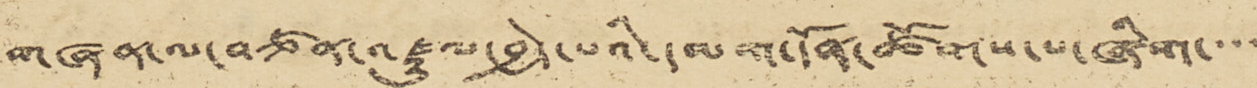གཞན་ལ་བཙན་འཛུལ་བྱེད་པའི་དམག་དོན་ཚོགས་པ་ཞིག་་་་
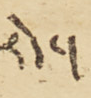རེད་།
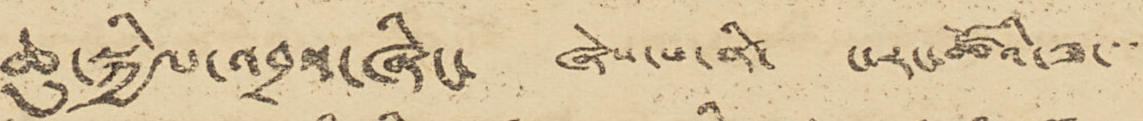ཆུ་སྐྱིལ་འབྲས་ཞིང་ ཞེས་པ་ནི་ ང་རང་ཚོའི་ཟ་་་་
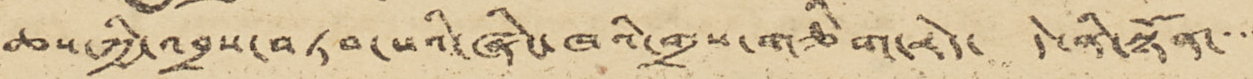ཆས་ཀྱི་འབྲས་བཏབ་པའི་ཞིང་ཁའི་གྲས་གཅིག་རེད་ དེ་ནི་སྟོན་་་་
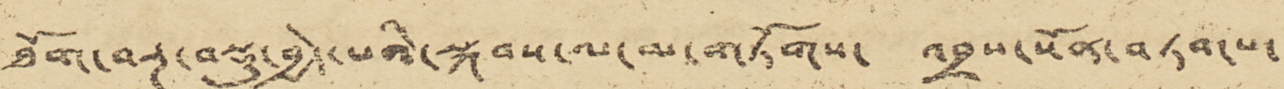ཐོག་བརྔ་བསྡུ་བྱེད་པའི་སྐབས་ལ་མ་གཏོགས་ འབྲས་སོན་བཏབ་པ་
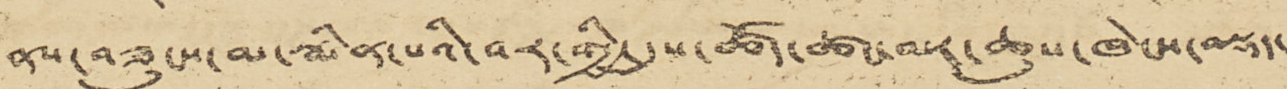ནས་བཟུངས་མ་སྨིན་པའི་བར་གྱི་དུས་ཚོད་ཚང་མར་ཆུས་ཁེངས་བསྡད་
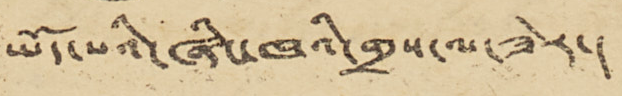ཡོད་པའི་ཞིང་ཁའི་གྲས་ལ་ཟེར་།
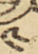༤
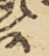༢
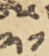༢༡
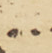་་་་
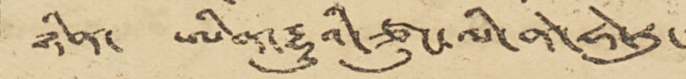ཉིན་ ཨིན་རྟུའི་ཙུང་ལི་ནེ་ཧེ་རུ་་
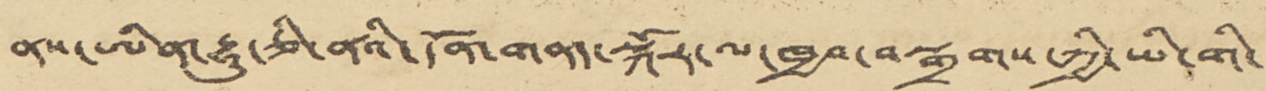ནས་ཨིན་རྷུ་ཅི་ནའི་དོན་གནད་སྐོར་ལ་ཁྱབ་བསྒྲགས་ཀྱི་ཡི་གེ་་
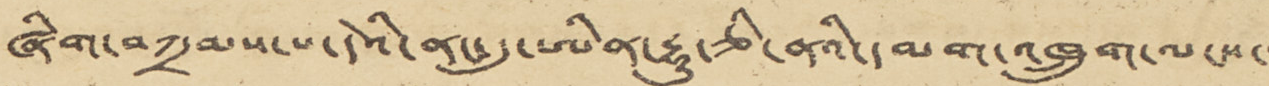ཞིག་བཀྲམས་པ་དེའི་ནང་དུ་ཨིན་རྷུ་ཅི་ནའི་དམག་འཁྲུག་ལངས་་
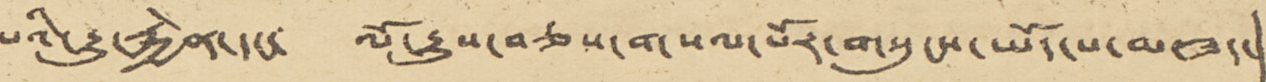པའི་རྒྱུ་རྐྱེན་དང་ ལོ་རྒྱུས་བཅས་གསལ་པོར་གསུངས་ཡོད་པ་མ་ཟད་།
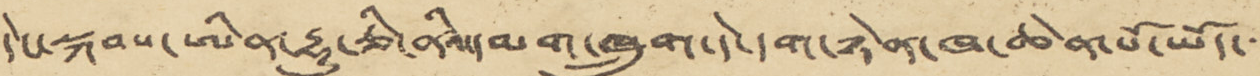དེང་སྐབས་ཨིན་རྷུ་ཅི་ནའི་དམག་ཁྲུག་དེ་དག་ཉེན་ཁ་ཆེན་པོ་ཡོད་་་
